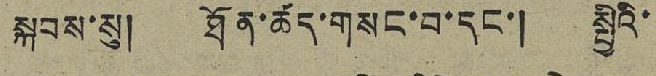སྐབས་སུ། ཐོན་ཚད་གསང་བ་དང་། སྤྱིའི་
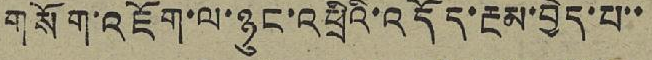གསོག་འཇོག་ལ་ཉུང་འཕྲིའི་འདོད་རྔམ་བྱེད་པ་་
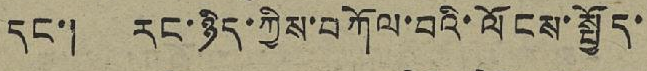དང་། རང་ཉིད་ཀྱིས་བཀོལ་བའི་ལོངས་སྤྱོད་
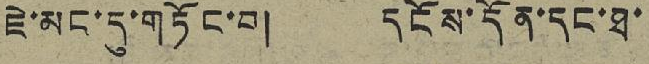ཇེ་མང་དུ་གཏོང་བ། དངོས་དོན་དང་ཐ་
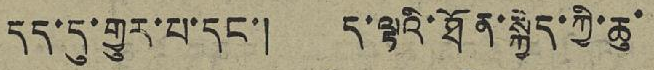དད་དུ་གྱུར་པ་དང་། ད་ལྟའི་ཐོན་སྐྱེད་ཀྱི་ཆུ་
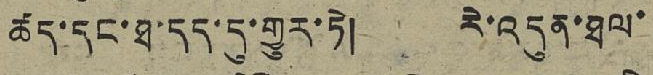ཚད་དང་ཐ་དད་དུ་གྱུར་ཏེ། རེ་འདུན་ཐལ་
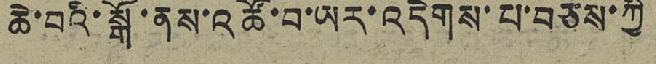ཆེ་བའི་སྒོ་ནས་འཚོ་བ་ཡར་འདེགས་པ་བཅས་ཀྱི
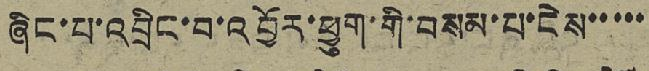ཞིང་པ་འབྲིང་བ་འབྱོར་ཕྱུག་གི་བསམ་པ་ངེས་་་་་
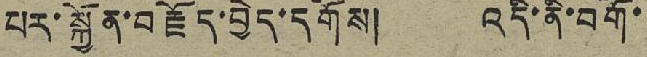པར་སྐྱོན་བརྗོད་བྱེད་དགོས། འདི་ནི་བགོ་
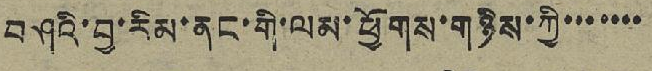བཤའི་བྱ་རིམ་ནང་གི་ལམ་ཕྱོགས་གཉིས་ཀྱི་་་་་་་
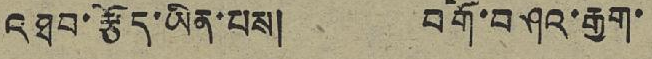འཐབ་རྩོད་ཡིན་པས། བགོ་བཤའ་རྒྱག་
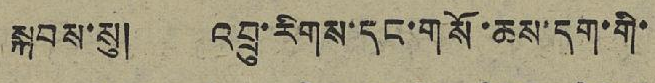སྐབས་སུ། འབྲུ་རིགས་དང་གསོ་ཆས་དག་གི་
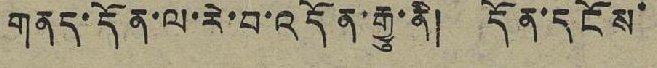གནས་དོན་ལ་རེ་བ་འདོན་རྒྱུ་ནི། དོན་དངོས་
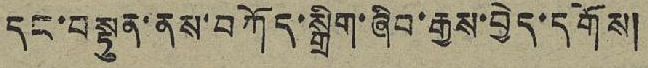དང་བསྟུན་ནས་བཀོད་སྒྲིག་ཞིབ་རྒྱས་བྱེད་དགོས།
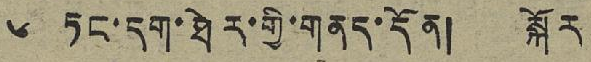༦ ཏང་དག་ཐེར་གྱི་གནད་དོན། སྐོར
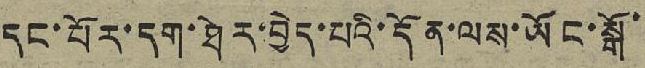དང་པོར་དག་ཐེར་བྱེད་པའི་དོན་ལས་ཡོང་སྒོ་
